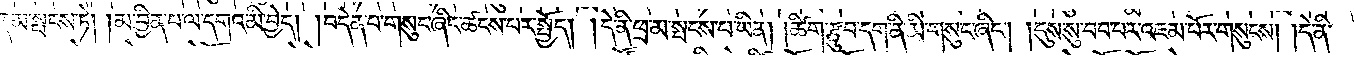པ་ནི་རྣམ་སྤངས་ཏེ། །མ་བྱིན་པ་ལ་དགའ་མི་བྱེད། །བདེན་པ་གསུང་ཞིང་ཚངས་པར་སྤྱོད། །དེ་ནི་ཕྲ་མ་སྤངས་པ་ཡིན། །ཚིག་རྩུབ་དག་ནི་མི་གསུང་ཞིང༌། །དུས་སུ་བབ་པར་འཇམ་པོར་གསུངས། །དེ་ནི་
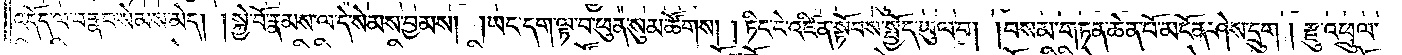འདོད་ལ་བརྣབ་སེམས་མེད། །སྐྱེ་བོ་རྣམས་ལ་དེ་སེམས་བྱམས། །ཡང་དག་ལྟ་བ་ཕུན་སུམ་ཚོགས། །ཏིང་ངེ་འཛིན་སྟོབས་སྤྱོད་ཡུལ་བ། །བསམ་གཏན་ཆེན་པོ་མངོན་ཤེས་དྲུག །རྫུ་འཕྲུལ་
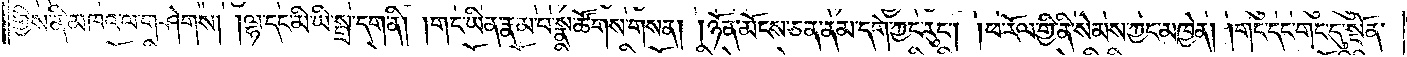གྱིས་ནི་མཁའ་ལ་གཤེགས། །ལྷ་དང་མི་ཡི་སྒྲ་དག་ནི། །གང་ཡིན་རྣམ་པ་སྣ་ཚོགས་གསན། །ཉོན་མོངས་ཅན་ནམ་དགེ་ཀྱང་རུང༌། །ཕ་རོལ་གྱི་ནི་སེམས་ཀྱང་མཁྱེན། །གང་དང་གང་དུ་སྔོན་
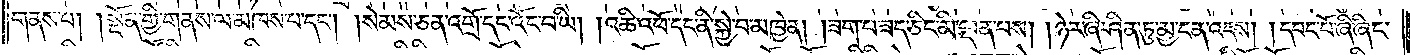གནས་པ། །སྔོན་གྱི་གནས་ལ་མཁས་པ་དང༌། །སེམས་ཅན་འགྲོ་དང་འོང་བ་ཡི། །འཆི་འཕོ་དང་ནི་སྐྱེ་བ་མཁྱེན། །ཟག་པ་ཟད་ཅིང་མི་ལྡན་པས། །ཉེར་ཞི་ཤིན་ཏུ་མྱ་ངན་འདས། །དབང་པོ་ཞི་ཞིང་
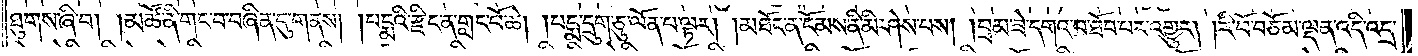ཐུགས་ཞི་བ། །མཚོ་ནི་གང་བ་བཞིན་དུ་གནས། །པདྨའི་རྫིང་ན་གླང་པོ་ཆེ། །པདྨ་དྲུག་ཅུ་ལོན་པ་ལྟར། །མཐོང་ན་ངོམས་ནི་མི་ཤེས་པས། །བྲམ་ཟེ་དགའ་བ་ཐོབ་པར་འགྱུར། །རི་བོ་བཅོམ་ལྡན་འདི་འདྲ་
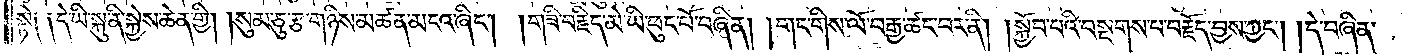སྟེ༑ ༑དེ་ཡི་སྐུ་ནི་སྐྱེས་ཆེན་གྱི། །སུམ་ཅུ་རྩ་གཉིས་མཚན་མངའ་ཞིང༌། །གཟི་བརྗིད་མེ་ཡི་ཕུང་པོ་བཞིན། །གང་གིས་ལོ་བརྒྱ་ཚང་བར་ནི། །སྐྱོབ་པའི་བསྔགས་པ་བརྗོད་བྱས་ཀྱང༌། །དེ་བཞིན་
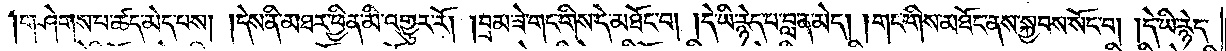།གཤེགས་པ་ཚད་མེད་པས། །དེས་ནི་མཐར་ཕྱིན་མི་འགྱུར་རོ། །བྲམ་ཟེ་གང་གིས་དེ་མཐོང་བ། །དེ་ཡི་རྙེད་པ་བླ་ན་མེད། །གང་གིས་མཐོང་ནས་སྐྱབས་སོང་བ། །དེ་ཡི་རྙེད་
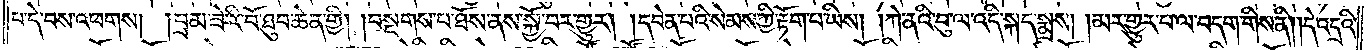པ་དེ་བས་འཕགས། །བྲམ་ཟེ་རི་བོ་ཐུབ་ཆེན་གྱི། །བསྔགས་པ་ཐོས་ནས་སྐྱོ་བར་གྱུར། །དབེན་པའི་སེམས་ཀྱི་རྟོག་པ་ཡིས། །ཀེ་ནའི་བུ་ལ་འདི་སྐད་སྨྲས། །མར་གྱུར་པ་ལ་བདག་གིས་ནི། །དེ་འདྲའི་
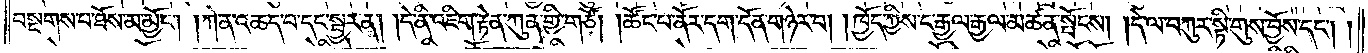བསྔགས་པ་ཐོས་མ་མྱོང༌། །ཀེ་ན་འཆད་པ་དང་སྦྱར་ན། །དེ་ནི་འཇིག་རྟེན་ཀུན་གྱི་གཙོ། །ཚོང་པ་ནོར་དག་དོན་གཉེར་བ། །ཁྱོད་ཀྱིས་ང་རྒྱལ་རྒྱལ་མཚན་སྤོངས། །དེ་ལ་བཀུར་སྟི་གུས་བྱོས་དང༌། །
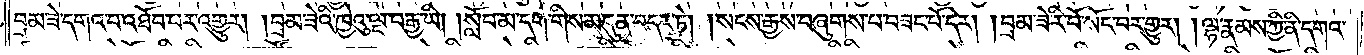བྲམ་ཟེ་དགའ་བ་འཐོབ་པར་འགྱུར། །བྲམ་ཟེའི་ཁྱེའུ་ལྔ་བརྒྱ་ཡི། །སློབ་མ་དག་གིས་མདུན་བདར་ཏེ། །སངས་རྒྱས་བཞུགས་པ་བཟང་པོ་དེར། །བྲམ་ཟེ་རི་བོ་སོང་བར་གྱུར། །ལྷ་རྣམས་ཀྱི་ནི་དགའ་
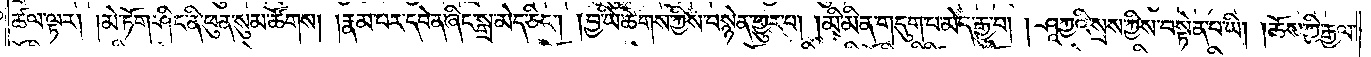ཚལ་ལྟར། །མེ་ཏོག་ཤིང་ནི་ཕུན་སུམ་ཚོགས། །རྣམ་པར་དབེན་ཞིང་སྒྲ་མེད་ཅིང༌། །བྱ་ཡི་ཚོགས་ཀྱིས་བསྙེན་གྱུར་པ། མི་མིན་གདུག་པ་མེད་རྒྱུ་བ། །ཤཱཀྱའི་སྲས་ཀྱིས་བསྟེན་པ་ཡི། །ཆོས་ཀྱི་རྒྱལ་
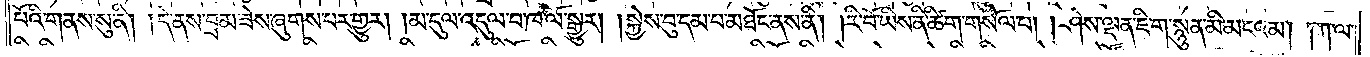པོའི་གནས་སུ་ནི། །དེ་ནས་བྲམ་ཟེས་ཞུགས་པར་གྱུར། །མ་དུལ་འདུལ་བ་ཁ་ལོ་སྒྱུར། །སྐྱེས་བུ་དམ་པ་མཐོང་ནས་ནི། །རི་བོ་ཡིས་ནི་ཚིག་གསོལ་པ། །ཤེས་ལྡན་ཇི་ག་སྙུན་མི་མངའམ། །ཀ་ལ་
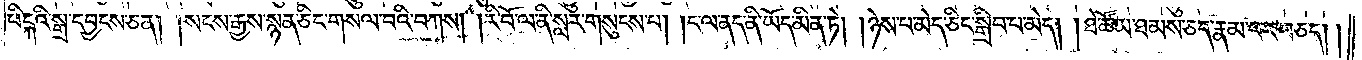པིངྐའི་སྒྲ་དབྱངས་ཅན། །སངས་རྒྱས་སྙན་ཅིང་གསལ་བའི་བཀས། །རི་བོ་ལ་ནི་སླར་གསུངས་པ། །ང་ལ་ནད་ནི་ཡོད་མིན་ཏེ། །ཉེས་པ་མེད་ཅིང་སྒྲིབ་པ་མེད། །ཐེ་ཚོམ་ཐམས་ཅད་རྣམ་པར་བཅད། །
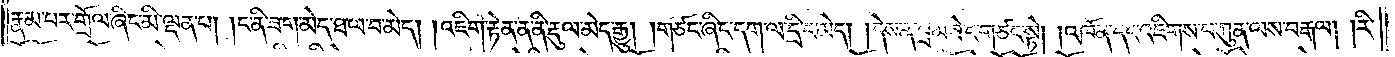རྣམ་པར་གྲོལ་ཞིང་མི་ལྡན་པ། །ང་ནི་ཟག་མེད་ཐལ་བ་མེད། །འཇིག་རྟེན་ན་ནི་རྡུལ་མེད་རྒྱུ། །གཙང་ཞིང་དག་ལ་དྲི་ང་མེད། །དེས་ན་བྲམ་ཟེ་ང་གཙང་སྟེ། །འཁོན་དང་འཇིགས་པ་ཀུན་ལས་བརྒལ། །རི་
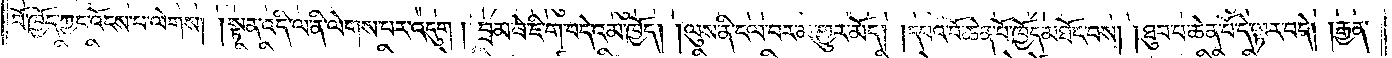བོ་ཁྱོད་ཀྱང་འོངས་པ་ལེགས། །སྟན་འདི་ལ་ནི་ལེགས་པར་འདུག །བྲམ་ཟེ་ཇི་ག་བདེ་འམ་ཁྱོད། །ལུས་ནི་ངལ་བར་མ་གྱུར་མོད། །དཔའ་བོ་ཆེན་པོ་ཁྱོད་མཐོང་བས། །ཐུབ་པ་ཆེན་པོ་དེ་ལྟར་བདེ། །རྒྱན་
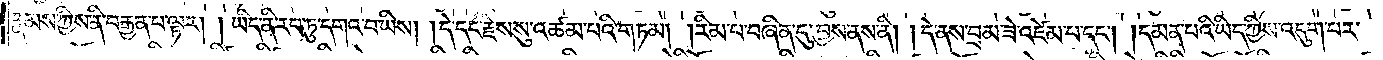རྣམས་ཀྱིས་ནི་བརྒྱན་པ་ལྟར། །ཡིད་ནི་རབ་ཏུ་དགའ་བ་ཡིས། །དེ་དང་རྗེས་སུ་འཚམ་པའི་གཏམ། །རིམ་པ་བཞིན་དུ་བྱས་ནས་ནི། །དེ་ནས་བྲམ་ཟེ་འཛེམ་པ་དང༌། །དམན་པའི་ཡིད་ཀྱིས་འདུག་པར་
